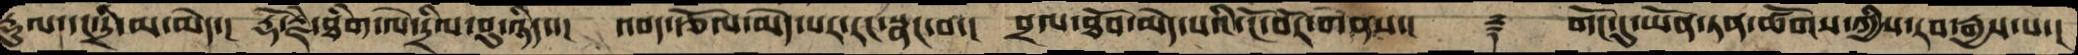རྡུལ་དང་དྲི་མ་མེད་།  རྡོ་རྗེ་ཐིག་ལེ་དྲིལ་བུ་ཉིད་་།  འབད་རྩོལ་མེད་པར་རང་སྣང་བ་།  བྲལ་ཐོབ་མེད་པའི་ངོ་བོར་གནས་།  ࿑  གོང་དུ་ཡོན་ཏན་ཚོགས་ཀྱིས་རབ་རྒྱས་པ་།
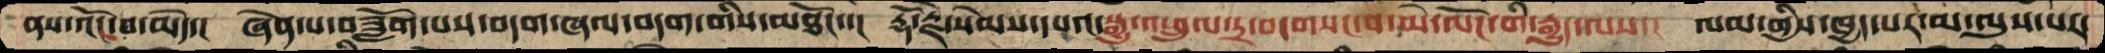ནས་འོང་བ་མེད་།  ཞེས་པ་བཟློག་པས་བདག་ཞལ་བདག་གིས་མཐོང་་།  རྡོ་རྗེ་སེམས་དཔའ་སྒྱུ་འཕྲུལ་དྲ་བ་གསང་བ་མེ་ལོང་གི་རྒྱུད་ལས་།  ལམ་གྱིས་ཁྱད་པར་མ་ལུས་པར་
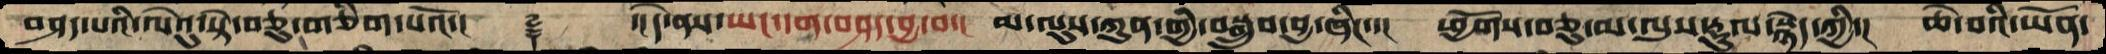བཤད་པའི་ལེའུ་སྟེ་བཅུ་གཅིག་པའོ་།   ࿑    ་།དེ་ནས་ཡང་དག་བཤད་བྱ་བ་།  མ་ལུས་ཀུན་གྱི་བསྒྲུབ་བྱ་ཞིང་་།  ཕྱོགས་བཅུ་མ་ལུས་རྡུལ་སྙེད་ཀྱི་།  ཆེ་བའི་ཡོན་
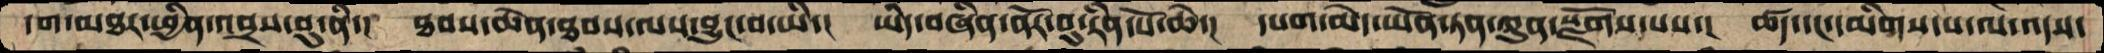དག་མཐར་ཕྱིན་འབྲས་བུ་ནི་།  ཐབས་ཆེན་ཐབས་ལས་བྱུང་བ་ཡི་།  ཡིད་བཞིན་ནོར་བུ་རིན་པོ་ཆེ་།  དཔག་མེད་ཡོན་ཏན་ཀུན་སྫོགས་པས་།  ཚད་དང་དམིགས་པ་ལ་འདས་
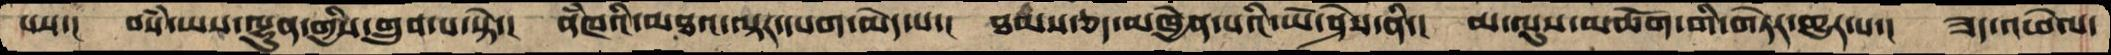པས་།  བསཾ་ཡས་ལྷུན་གྱིས་གྲུབ་པ་སྟེ་།   ནཾཁའི་མཐའ་ལྟར་དཔག་མེད་པ་།  ཐམས་ཅད་མཁྱེན་པའི་ཡེ་ཤེས་ནི་།  མ་ལུས་མཆོག་གི་གཏེར་གྱུར་པ་།  ཟད་འཕེལ་
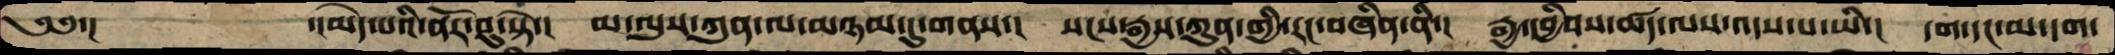༄༅་།         ་།མེད་པའི་ནོར་བུ་སྟེ་།   མ་ལུས་ཀུན་ལ་མཉམ་དུ་གནས་།  སངས་རྒྱས་ཀུན་གྱི་རང་བཞིན་ནི་།  རྒྱ་དབྱིབས་ཚད་ལས་འདས་པ་ཡི་།  དག་དང་མ་དག་
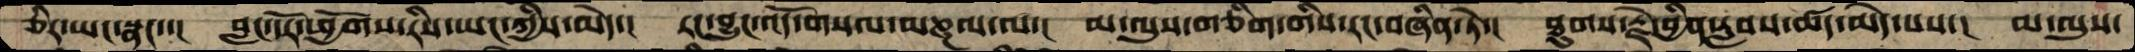ཅིར་ཡང་སྣང་་།   བླང་དོར་ཕྱོགས་རིས་ཡང་ཀྱིས་མེད་།  རང་བྱུང་འོད་གསལ་མཎྜལ་ལ་།  མ་ལུས་གཅིག་གིས་རང་བཞིན་ཏེ་།  ཐུགས་རྗེ་བྱིན་རླབས་ཚད་མེད་པས་།  མ་ལུས་
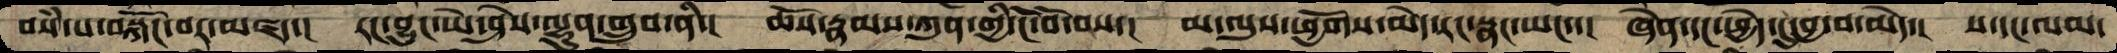བསཾ་པ་བསྐོང་བར་མཛད་།  རང་བྱུང་ཡེ་ཤེས་ལྷུན་གྲུབ་ནི་།  ཆོས་རྣམས་ཀུན་གྱི་ངོ་བོ་བས་།  མ་ལུས་ཕྱོགས་མེད་རང་སྣང་ཡང་་།  ཞེན་དང་ཕྱེད་དུ་བྱ་བ་མེད་།   ས་དང་ལམ་
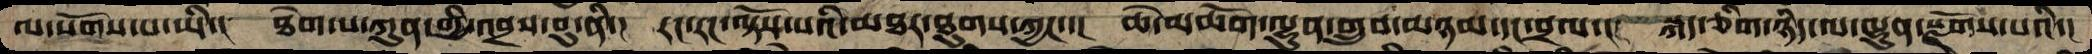ལ་སོགས་པ་ཡི་།  ཐེག་པ་ཀུན་གྱི་འབྲས་བུ་ནི་།  རང་རང་ལྟོས་པའི་མཐར་ཐུགས་ཀྱང་་།  ཆེ་མཆོག་ལྷུན་གྲུབ་མཉམ་དང་བྲལ་།  སྐད་ཅིག་ཉིད་ལ་ལྷུན་སྫོགས་པའི་།
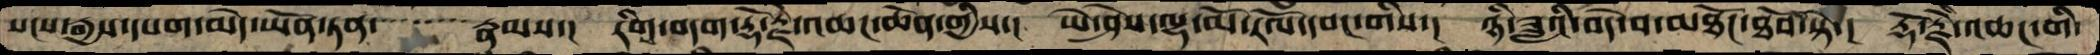སངསརྒྱས་དཔག་མེད་ཡོན་ཏན་་་་་་་རྣམས་།  རིག་བདག་རྡོ་རྗེ་འཆང་ཆེན་གྱིས་།  ཡེ་ཤེས་ལྷ་མོ་རོལ་དབང་གིས་།  ཉི་ཟླའི་བདེ་བ་མཐོང་ཐོབ་སྟེ་།  རྡོ་རྗེ་འཆང་གི་
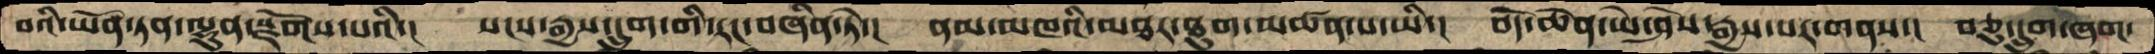བའི་ཡོན་ཏན་ལྷུན་སྫོགས་པའི་།   སངས་རྒྱས་དྲུག་གི་རང་བཞིན་ཏེ་།  ནམ་མཁའི་མཐར་ཐུག་མཚན་པ་ཡི་།  བདེ་ཆེན་ཡེ་ཤེས་རྒྱས་པར་གནས་།  བཅུ་དྲུག་ཞག་
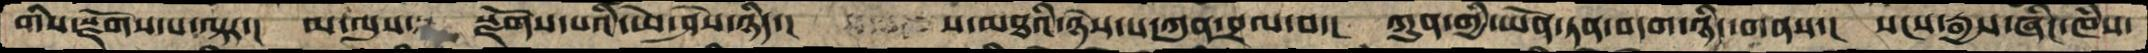གིས་སྫོགས་པ་ལྟར་།  མ་ལུས་   སྫོགས་པའི་ཡེ་ཤེས་ཉིད་།    ས་མཐའི་ཉེས་པ་ཀུན་བྲལ་བ་།  ཀུན་གྱི་ཡོན་ཏན་བདག་ཉིད་གནས་།  སངས་རྒྱས་ཞིང་ཁཾས་
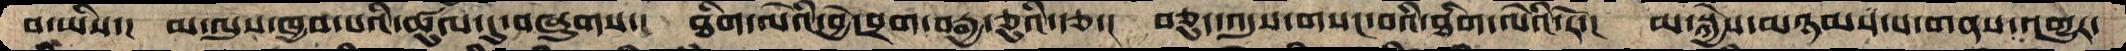བ་ཡིས་།  མ་ལུས་ཁྱབ་པའི་ཚུལ་དུ་བཞུགས་།  ཐིག་ལེའི་བྱེ་བྲག་བརྒྱ་ཅུའི་རྩ་།  བཅུད་འདུས་གསང་བའི་ཐིག་ལེ་རོ་།  མ་སྐྱེས་མཉམས་པ་གནས་འགྱུར་
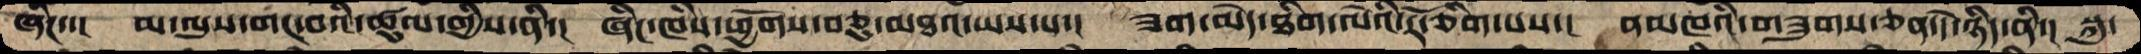ཞིང་་།   མ་ལུས་གང་བའི་ཚུལ་གྱིས་ནི་།  ཞིང་ཁཾས་ཕྱོགས་བཅུ་མཐའ་ཡས་པ་།  ཟག་མེད་ཐིག་ལེའི་རོ་ཅིག་པས་།  ནམཁའི་གཟུགས་ཅན་དེ་ཉིད་ནི་།  སྐུ་
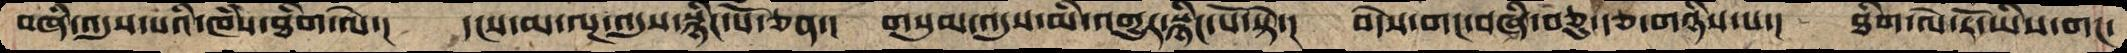བཞི་འདུས་པའི་ཁཾས་ཐིག་ལེ་།   དངས་མ་ལྔ་འདུས་སྙིང་པོ་ཅན་།  གསུམ་འདུས་མི་འགྱུར་སྙིང་པོ་སྟེ་།   བདེས་གང་བཞི་བཅུ་རྩ་གཉིས་པ་།  ཐིག་ལེ་རོ་ཡིས་གང་
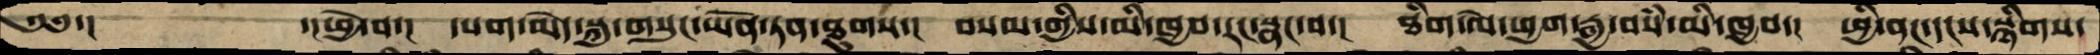༄༅་།       ་།ཕྱེ་བ་།  དཔག་མེད་སྐུ་གསུང་ཡོན་ཏན་ཐུགས་།  བསམ་གྱིས་མི་ཁྱབ་རང་སྣང་བ་།  ཐིག་ལེ་ཕྱག་རྒྱ་བསཾ་མི་ཁྱབ་།  ཕྱི་ནང་དངས་སྙིགས་
